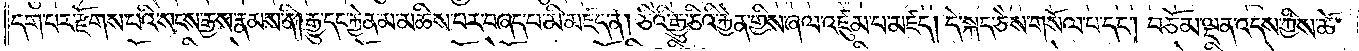དག་པར་རྫོགས་པའི་སངས་རྒྱས་རྣམས་ནི། རྒྱུ་དང་རྐྱེན་མ་མཆིས་པར་བཞད་པ་མི་མཛད་ན། ཅིའི་རྒྱུ་ཅིའི་རྐྱེན་གྱིས་ཞལ་འཛུམ་པ་མཛད། དེ་སྐད་ཅེས་གསོལ་པ་དང༌། བཅོམ་ལྡན་འདས་ཀྱིས་ཚེ་
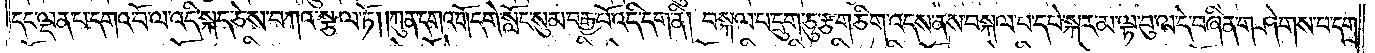དང་ལྡན་པ་དགའ་བོ་ལ་འདི་སྐད་ཅེས་བཀའ་སྩལ་ཏོ། །ཀུན་དགའ་བོ། དགེ་སློང་སུམ་བརྒྱ་པོ་འདི་དག་ནི། བསྐལ་པ་དྲུག་ཅུ་རྩ་གཅིག་འདས་ནས་བསྐལ་པ་དཔེ་སྐར་མ་ལྟ་བུ་ལ་དེ་བཞིན་གཤེགས་པ་དགྲ་
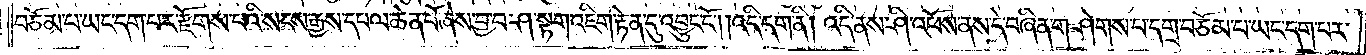བཅོམ་པ་ཡང་དག་པར་རྫོགས་པའི་སངས་རྒྱས་དཔལ་ཆེན་པོ་ཞེས་བྱ་བ་ཤ་སྟག་འཇིག་རྟེན་དུ་འབྱུང་ངོ༌། །འདི་དག་ནི། འདི་ནས་ཤི་འཕོས་ནས་དེ་བཞིན་གཤེགས་པ་དགྲ་བཅོམ་པ་ཡང་དག་པར་
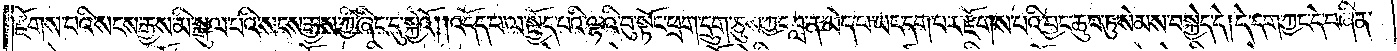རྫོགས་པའི་སངས་རྒྱས་མི་སྒུལ་པའི་སངས་རྒྱས་ཀྱི་ཞིང་དུ་སྐྱེའོ། །འདོད་པ་ལ་སྤྱོད་པའི་ལྷའི་བུ་སྟོང་ཕྲག་དྲུག་ཅུས་ཀྱང་བླ་ན་མེད་པ་ཡང་དག་པར་རྫོགས་པའི་བྱང་ཆུབ་ཏུ་སེམས་བསྐྱེད་དེ། དེ་དག་ཀྱང་དེ་བཞིན་
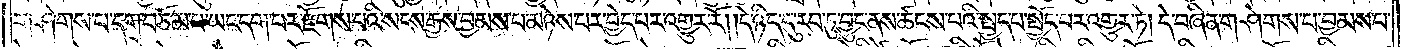གཤེགས་པ་དགྲ་བཅོམ་པ་ཡང་དག་པར་རྫོགས་པའི་སངས་རྒྱས་བྱམས་པ་མཉེས་པར་བྱེད་པར་འགྱུར་རོ། །དེ་ཉིད་དུ་རབ་ཏུ་བྱུང་ནས་ཚངས་པའི་སྤྱད་པ་སྤྱོད་པར་འགྱུར་ཏེ། དེ་བཞིན་གཤེགས་པ་བྱམས་པ་
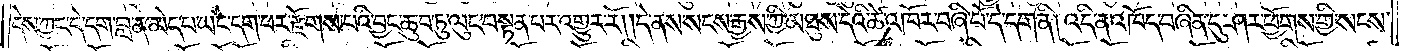དེས་ཀྱང་དེ་དག་བླ་ན་མེད་པ་ཡང་དག་པར་རྫོགས་པའི་བྱང་ཆུབ་ཏུ་ལུང་བསྟན་པར་འགྱུར་རོ། །དེ་ནས་སངས་རྒྱས་ཀྱི་མཐུས་དེའི་ཚེ་འཁོར་བཞི་པོ་དེ་དག་ནི། འདི་ན་འཁོད་བཞིན་དུ་ཤར་ཕྱོགས་ཀྱི་སངས་
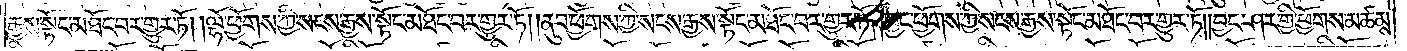རྒྱས་སྟོང་མཐོང་བར་གྱུར་ཏོ། །ལྷོ་ཕྱོགས་ཀྱི་སངས་རྒྱས་སྟོང་མཐོང་བར་གྱུར་ཏོ། །ནུབ་ཕྱོགས་ཀྱི་སངས་རྒྱས་སྟོང་མཐོང་བར་གྱུར་ཏོ། །བྱང་ཕྱོགས་ཀྱི་སངས་རྒྱས་སྟོང་མཐོང་བར་གྱུར་ཏོ། །བྱང་ཤར་གྱི་ཕྱོགས་མཚམས་
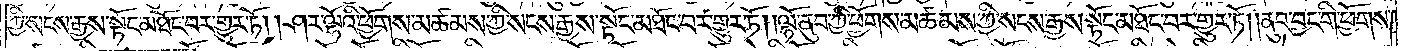ཀྱི་སངས་རྒྱས་སྟོང་མཐོང་བར་གྱུར་ཏོ། །ཤར་ལྷོའི་ཕྱོགས་མཚམས་ཀྱི་སངས་རྒྱས་སྟོང་མཐོང་བར་གྱུར་ཏོ། །ལྷོ་ནུབ་ཀྱི་ཕྱོགས་མཚམས་ཀྱི་སངས་རྒྱས་སྟོང་མཐོང་བར་གྱུར་ཏོ། །ནུབ་བྱང་གི་ཕྱོགས་
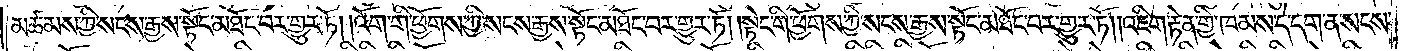མཚམས་ཀྱི་སངས་རྒྱས་སྟོང་མཐོང་བར་གྱུར་ཏོ། །འོག་གི་ཕྱོགས་ཀྱི་སངས་རྒྱས་སྟོང་མཐོང་བར་གྱུར་ཏོ། །སྟེང་གི་ཕྱོགས་ཀྱི་སངས་རྒྱས་སྟོང་མཐོང་བར་གྱུར་ཏོ། །འཇིག་རྟེན་གྱི་ཁམས་དེ་དག་ན་སངས་
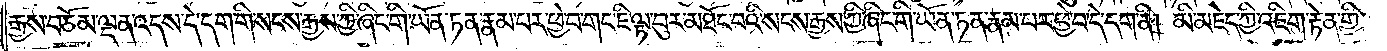རྒྱས་བཅོམ་ལྡན་འདས་དེ་དག་གི་སངས་རྒྱས་ཀྱི་ཞིང་གི་ཡོན་ཏན་རྣམ་པར་ཕྱེ་བ་གང་ཇི་ལྟ་བུར་མཐོང་བའི་སངས་རྒྱས་ཀྱི་ཞིང་གི་ཡོན་ཏན་རྣམ་པར་ཕྱེ་བ་དེ་དག་ནི། མི་མཇེད་ཀྱི་འཇིག་རྟེན་གྱི་
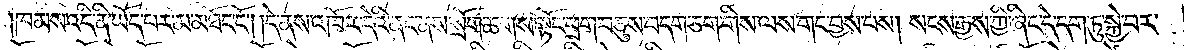ཁམས་འདི་ནི་ཡོད་པར་མ་མཐོང་ངོ༌། །དེ་ནས་འཁོར་དེའི་ནང་ནས་སྲོག་ཆགས་སྟོང་ཕྲག་བཅུས་བདག་ཅག་གིས་ལས་གང་བྱས་པས། སངས་རྒྱས་ཀྱི་ཞིང་དེ་དག་ཏུ་སྐྱེ་བར་
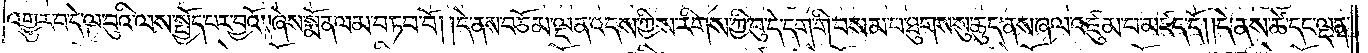འགྱུར་བ་དེ་ལྟ་བུའི་ལས་སྤྱོད་པར་བྱའོ། །ཞེས་སྨོན་ལམ་བཏབ་བོ། །དེ་ནས་བཅོམ་ལྡན་འདས་ཀྱིས་རིགས་ཀྱི་བུ་དེ་དག་གི་བསམ་པ་ཐུགས་སུ་ཆུད་ནས་ཞལ་འཛུམ་པ་མཛད་དོ། །དེ་ནས་ཚེ་དང་ལྡན་
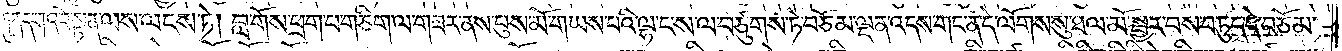པ་ཀུན་དགའ་བོ་སྟན་ལས་ལངས་ཏེ། བླ་གོས་ཕྲག་པ་གཅིག་ལ་གཟར་ནས་པུས་མོ་གཡས་པའི་ལྷ་ང་ས་ལ་བཙུགས་ཏེ་བཅོམ་ལྡན་འདས་གང་ན་དེ་ལོགས་སུ་ཐལ་མོ་སྦྱར་བས་བཏུད་དེ་བཅོམ་
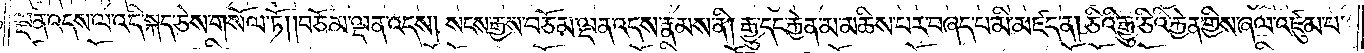ལྡན་འདས་ལ་འདི་སྐད་ཅེས་གསོལ་ཏོ། །བཅོམ་ལྡན་འདས། སངས་རྒྱས་བཅོམ་ལྡན་འདས་རྣམས་ནི། རྒྱུ་དང་རྐྱེན་མ་མཆིས་པར་བཞད་པ་མི་མཛད་ན། ཅིའི་རྒྱུ་ཅིའི་རྐྱེན་གྱིས་ཞལ་འཛུམ་པ་
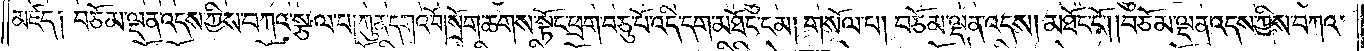མཛད༑ བཅོམ་ལྡན་འདས་ཀྱིས་བཀའ་སྩལ་པ། ཀུན་དགའ་བོ། སྲོག་ཆགས་སྟོང་ཕྲག་བཅུ་པོ་འདི་དག་མཐོང་ངམ། གསོལ་པ། བཅོམ་ལྡན་འདས། མཐོང་ངོ༌། །བཅོམ་ལྡན་འདས་ཀྱིས་བཀའ་
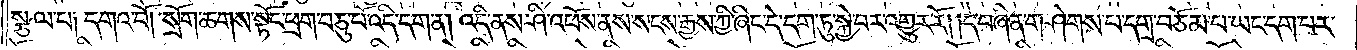སྩལ་པ༑ དགའ་བོ། སྲོག་ཆགས་སྟོང་ཕྲག་བཅུ་པོ་འདི་དག་ན། འདི་ནས་ཤི་འཕོས་ནས་སངས་རྒྱས་ཀྱི་ཞིང་དེ་དག་ཏུ་སྐྱེ་བར་འགྱུར་རོ། །དེ་བཞིན་གཤེགས་པ་དགྲ་བཅོམ་པ་ཡང་དག་པར་
